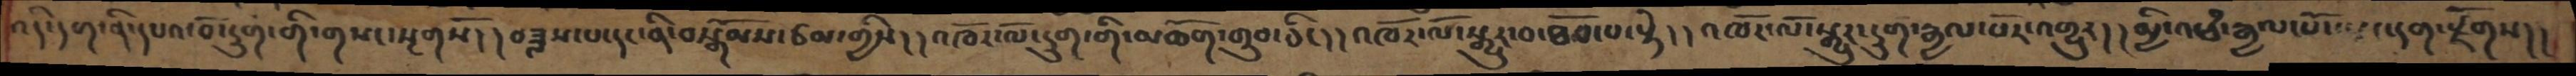འདི་དག་ནི་དཔའ་བོ་དྲུག་གི་གསང་སྔགསོ། །བཟླས་པ་དང་ནི་བསྒོམས་ཙམ་གྱིས། །འཁོར་ལོ་དྲུག་གི་མཆོག་གྲུབ་ཅིང། །འཁོར་ལོ་སྒྱུར་བ་ཐོབ་པ་སྟེ། །འཁོར་ལོ་སྒྱུར་དྲུག་རྒྱལ་པོར་འགྱུར། །མྱི་འཕཾ་རྒྱལ་པོ་ཡང་དག་རྗོགས།།
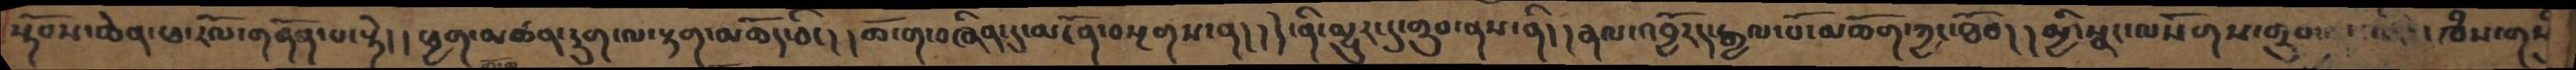སྟོབས་ཆེན་ཕ་རོལ་གནོན་པ་སྟེ། །ཕྱག་མཚན་དྲུག་ལ་རྟག་མཆོད་ཅིང། །ཆོ་ག་བཞིན་དུ་མངོན་བསྔགས་ན། །དེ་ནི་མྱུར་དུ་གྲུབ་ནས་ནི། །རྣལ་འབྱོརད་རྒྱལ་པོ་མཆོག་ཀྱང་ཐོབ། །མྱི་སྣང་ལསོགས་གྲུབ་པ་འདི། །ཁཾས་གསུཾ་
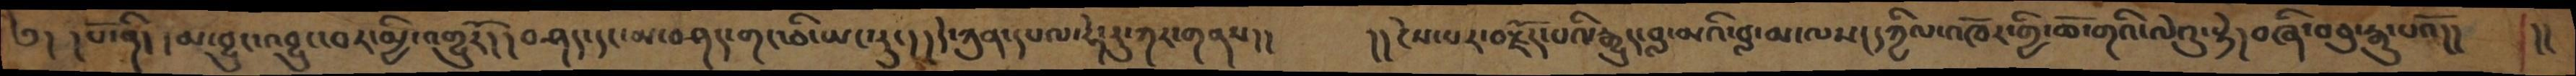༄། །པོ་ནི། །མ་བྱུང་འབྱུང་བར་མྱི་འགྱུརོ། །བཤད་དང་མ་བཤད་གང་ཅི་ཡང་རུང། །དེ་ཀུན་དཔལ་ཧེ་རུ་ཀར་གནས།། །།ངེས་པར་བརྗོད་པའི་རྒྱུད་བླ་མའི་བླ་མ་ལས། དཀྱིལ་འཁོར་གྱི་ཆོ་གའི་ལེའུ་སྟེ། བཞི་བཅུ་རྒུ་པའོ།། །།
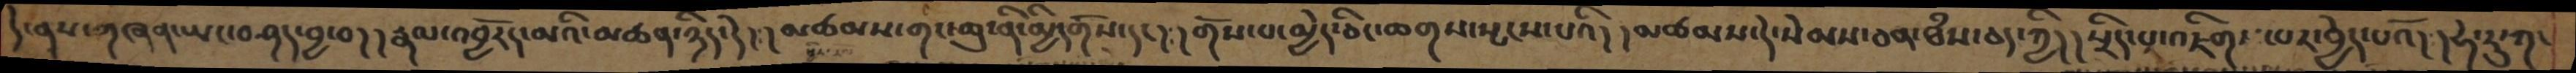དེ་ནས་གཞན་ཡང་བཤད་བྱ་བ། །རྣལ་འབྱོརད་མའི་མཚན་ཉིད་དེ།།མཚམས་གང་ཆུ་ནི་མྱི་དགོས་དང།།གོས་པ་མྱེད་ཅིང་ཆགས་སྤངས་པའི། །མཚམས་དེ་སེམས་ཅན་ཐཾས་ཅད་ཀྱི།།སྲིད་པ་འཇིགས་པར་བྱེད་པའོ།།ཧེ་རུ་ཀ་
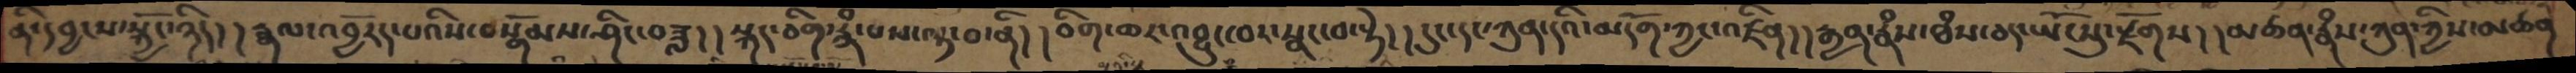ནི་དབྱངས་སྐྱོང་ཉིད། །རྣལ་འབྱོརད་པའིས་བསྒོམས་ཤིང་བཟླ། །སྐད་ཅིག་རྣཾ་པས་ལྟ་བ་ནི། །ཅིག་ཆར་འབྱུང་བར་སྣང་བ་སྟེ། །དུང་དང་ཀུན་དའི་མདོག་ཀྱང་འཛིན། །རྒྱན་རྣཾས་ཐཾས་ཅད་ཡོངསུ་རྫོགས། །མཚན་རྣཾས་ཀུན་ཀྱིས་མཚན
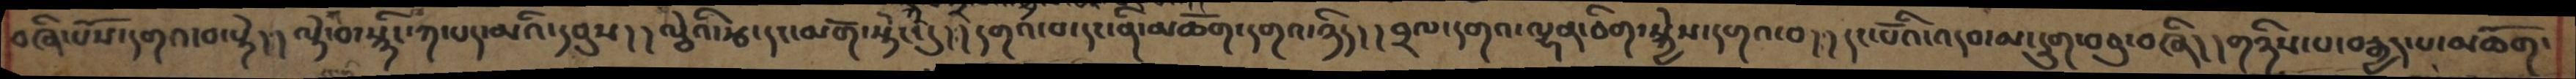བཞི་པོས་དགའ་བ་སྟེ། །ལྟེ་བ་སྙིང་ཀ་པད་མའི་དབུས། །ལྕེའི་རྩ་དང་མགོ་སྟེང་དུ། །དགའ་བ་དང་ནི་མཆོག་དགའ་ཉིད། །བྲལ་དགའ་ལྷན་ཅིག་སྐྱེས་དགའ་བ། །དང་པོའི་འདབ་མ་དྲུག་བཅུ་བཞི། །གཉིས་པ་བརྒྱད་པ་མཆོག་
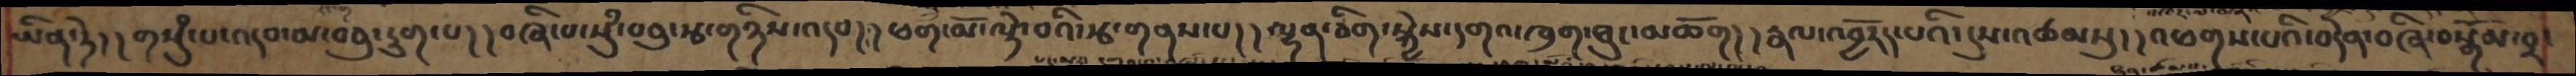ཡིན་ཏེ། །གསུཾ་པ་འདབ་མ་བཅུ་དྲུག་པ། །བཞི་པ་སུཾ་བཅུ་རྩ་གཉིས་འདབ། །ཕག་མོ་ལྟེ་བའི་རྩ་གནས་པ། །ལྷན་ཅིག་སྐྱེས་དགའ་ཁྲག་ཐུང་མཆོག། །རྣལ་འབྱོརད་པའི་དུས་འཚམསུ། །འཕགས་པའི་བདེན་བཞི་བསྒོམ་བར་
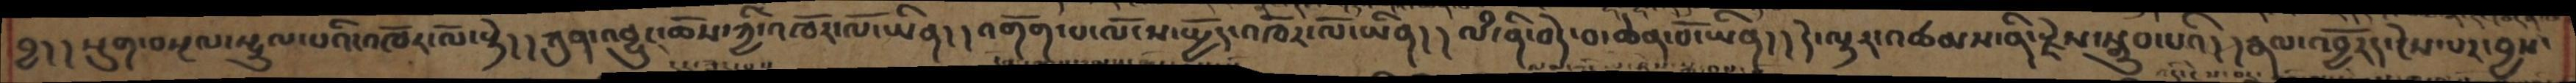བྱ། །སྡུག་བསྔལ་སྤྲུལ་པའི་འཁོར་ལོ་སྟེ།།ཀུན་འབྱུང་ཆོས་ཀྱི་འཁོར་ལོ་ཡིན། །འགོག་པ་ལོངས་སྤྱོད་འཁོར་ལོ་ཡིན། །ལཾ་ནི་བདེ་བ་ཆེན་པོ་ཡིན། །དེ་ལྟར་འཚམས་ནི་རྗེས་སྒྲུབ་པའི། །རྣལ་འབྱོརད་ངེས་པར་བྱས་
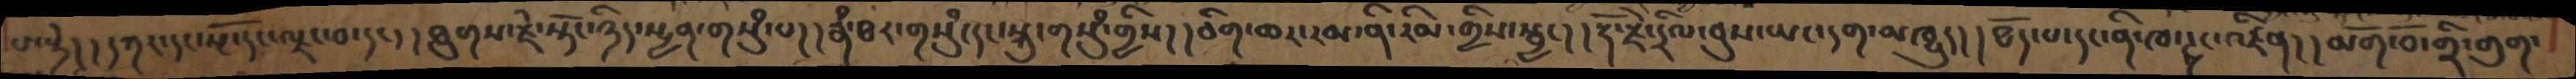པ་སྟེ། །དཀར་དང་སྔོ་དང་ལྗང་བ་དང། །ཐུགས་རྗེ་སྟོང་ཉིད་སྤྱན་གསུཾ་པ། །རྣཾ་ཐར་གསུཾ་དང་སྐུ་གསུཾ་གྱིས། །ཅིག་ཆར་རམ་ནི་རིམ་གྱིས་སྦྱར། །རྡོ་རྗེ་དྲིལ་བུས་ཡང་དག་མཁྱུད། །ཐོད་པ་དང་ནི་ཁ་ཊྭང་འཛིན། །མགོ་བོ་གྲི་གུག་
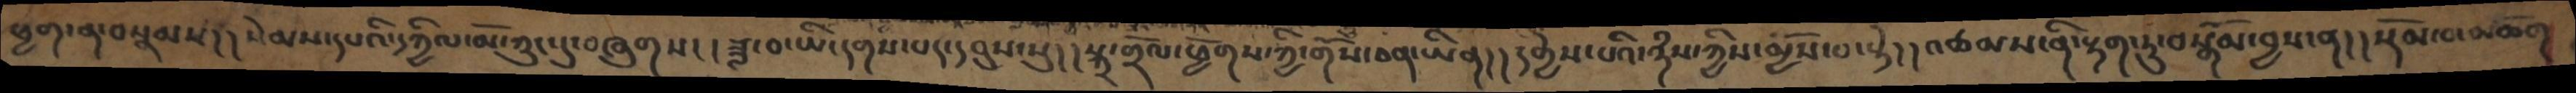ཕྱག་ན་བསྣམས། །སེམས་དཔའི་དཀྱིལ་མོ་ཀྲུང་དུ་བཞུགས། །ཟླ་བ་ཡི་དགས་པད་དབུས་སུ། །སྐྲ་གྲོལ་ཕྱོགས་ཀྱི་གོས་ཅན་ཡིན། །དགྱེས་པའི་ཉཾས་ཀྱིས་མྱོས་པ་སྟེ། །འཚམས་ནི་རྟག་ཏུ་བསྒོམ་བྱས་ན། །སྡོམ་བ་མཆོག
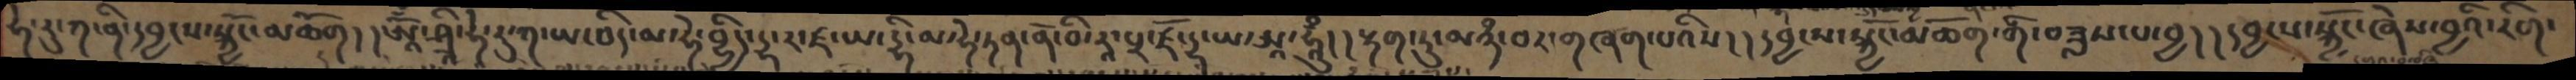ཧེ་རུ་ཀ་ནི་དབྱངས་སྐྱོང་མཆོག། །ཨཱོྃ་ཤྲཱི་ཧེ་རུ་ཀ་ཡ་བིད་མ་ཧེ་བྷྱིད་དྷ་ར་ཛ་ཡ་དྷི་མ་ཧེ་ཏན་ནོ་བོ་རཱ་པྲ་ཛོ་དྷ་ཡ་ཨཱ་ཧཱུྃ། །རྟག་ཏུ་མཉཾ་བར་གཞག་པའིས། །དབྱངས་སྐྱོང་མཆོག་གི་བཟླས་པ་བྱ། །དབྱངས་སྐྱོང་ཞེས་བྱའི་རིག་
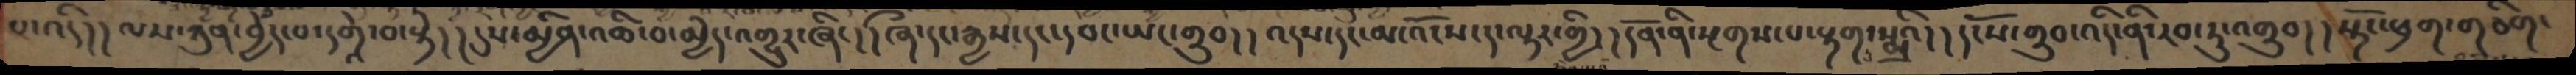པ་འདི། །ལས་ཀུན་བྱེད་པ་དགེའ་བ་སྟེ། །དུས་མྱིན་འཆི་བ་མྱེད་འགྱུར་ཞིང། །ཞྀ་དང་རྒྱས་དང་དབང་ཡང་གྲུབ། །འདས་དང་མ་འོངས་ད་ལྟར་གྱི། །དོན་ནི་སྔགས་པ་རྟག་སྨྲའི། །དངོས་གྲུབ་འདི་ནི་རབ་ཏུ་འགྲུབ། །སྟོང་ཕྲག་གཅིག་
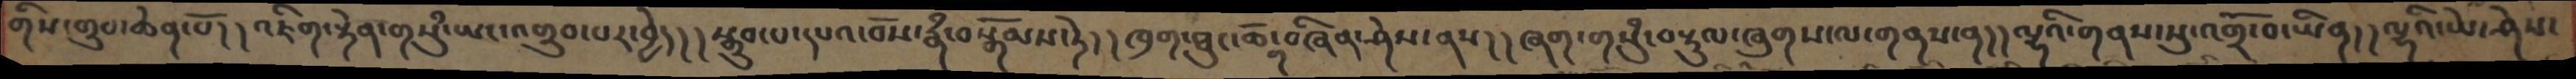གིས་གྲུབ་ཆེན་པོ། །འཇིག་རྟེན་གསུཾ་ཡང་འགྲུབ་པར་བྱེད། །སྒྲུབ་པ་དཔའ་བོས་རྣཾ་བསྒོམས་ཏེ། །ཁྲག་ཐུང་ཆོ་ག་བཞིན་ཤེས་ནས། །ཞག་གསུཾ་བརྟུལ་ཞུགས་ལ་གནས་ན། །ལྷའི་གནས་སུ་འགྲོ་བ་ཡིན། །ལྷའི་ཡེ་ཤེས་
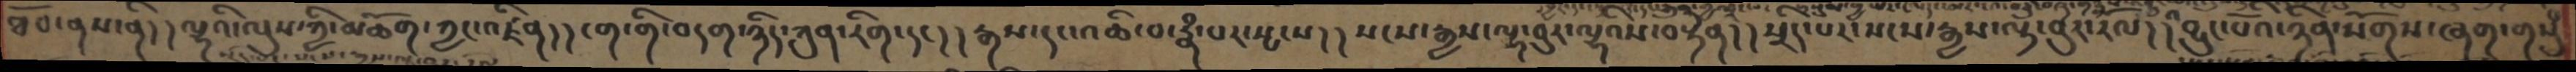ཐོབ་ནས་ནི། །ལྷའི་ལུས་ཀྱི་མཆོག་ཀྱང་འཛིན། །ངག་གི་བདག་ཉིད་ཀུན་རིག་དང། །རྒས་དང་འཆི་བ་རྣཾ་པར་སྤངས། །སངས་རྒྱས་ལྟ་བུར་ལྷའིས་བསྟེན། །སྲིད་པར་སངས་རྒྱས་ལྟ་བུར་རོལ། །འབྱུང་པོའི་ཉིན་སོགས་ཞག་གསུཾ
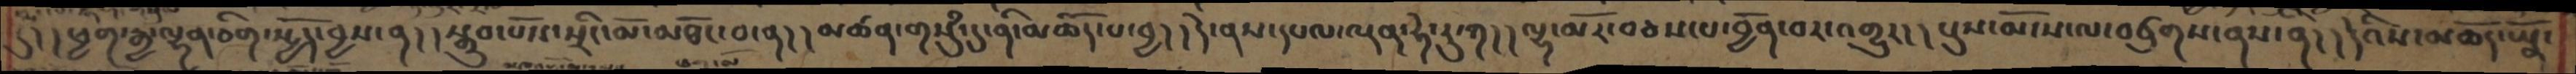དུ། །ཕྱག་རྒྱ་ལྷན་ཅིག་སྤྱོད་བྱས་ན། །སྒྲུབ་པོས་སྲིང་མོ་མཐོང་བ་ན། །མཚན་གསུཾ་དུ་ནི་མཆོད་པ་བྱ། །དེ་ནས་དཔལ་ལྡན་ཧེ་རུ་ཀ། །ལྷ་མོར་བཅས་པ་བྱོན་བར་འགྱུར། །པུས་མོ་ས་ལ་བཙུགས་ནས་ནི། །དེའིས་མཆོད་ཡོན་
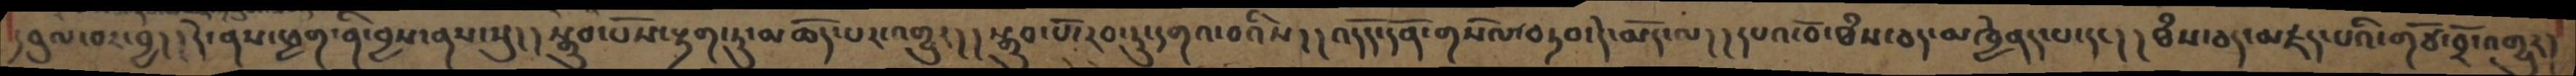དབུལ་བར་བྱ།།དེ་ནས་ཕྱག་ནི་བྱས་ནས་སུ།།སྒྲུབ་པོས་རྟག་ཏུ་མཆོད་པར་འགྱུར།།སྒྲུབ་པོ་རབ་ཏུ་དགའ་བའིས།།འདོད་དོན་གསོལ་བཏབ་དེ་མོད་ལ།།དཔའ་བོ་ཐཾས་ཅད་མཁྱེནད་པ་དང།།ཐཾས་ཅད་མཛད་པའི་གཙོ་བོར་འགྱུར་
